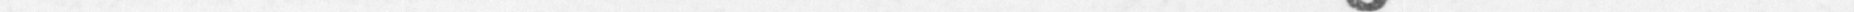(1747) Georg Rieks.
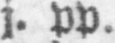j. pp.
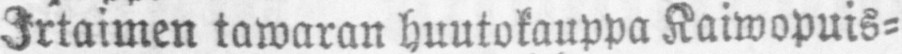Irtaimen tawaran huutokauppa Kaiwopuis-
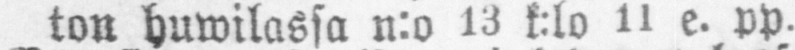ton huwilassa n:o 13 k.lo 11 e. pp-
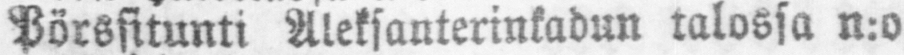Pörssitunti Aleksanterinkadun talossa n:o
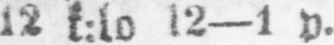12 k:lo 12-1 p.
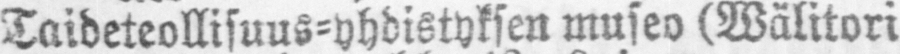Taideteollisuus-yhdistyksen museo (Wälitori
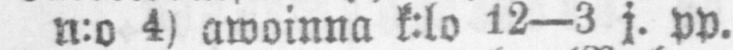n:o 4) awoinna k:lo 12 —3 j. pp.
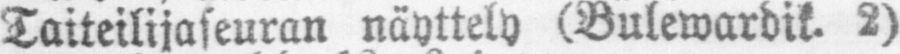Taiteilijaseuran näyttely (Bulewardik. 2)
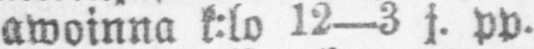awoinna k:lo 12—3 j. pp.
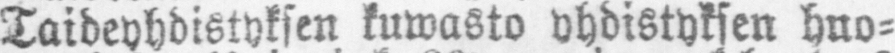Taideyhdistyksen kuwasto yhdistyksen huo-
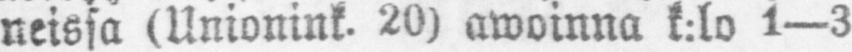neissa (Unionink. 20) awoinna k:lo 1—3
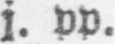j. pp.
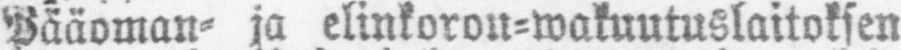Pääoman- ja elinkoron-wakuutuslaitoksen
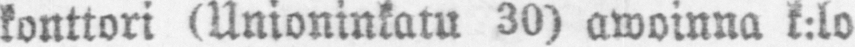konttori (Unioninkatu 30) awoinna k:lo
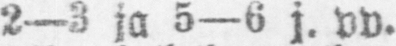2—3 ja 5—6 j. pp.
